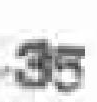35
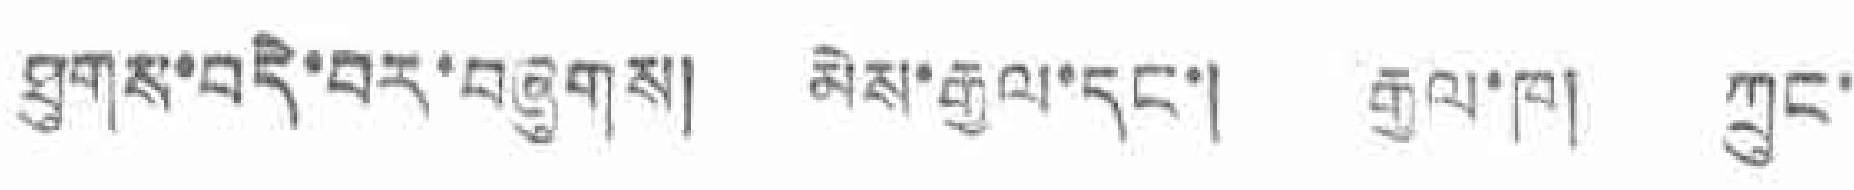ཐུགས་བདེ་བར་བཞུགས། མེས་རྒྱལ་དང་། རྒྱལ་ཁ། ཀྲུང་
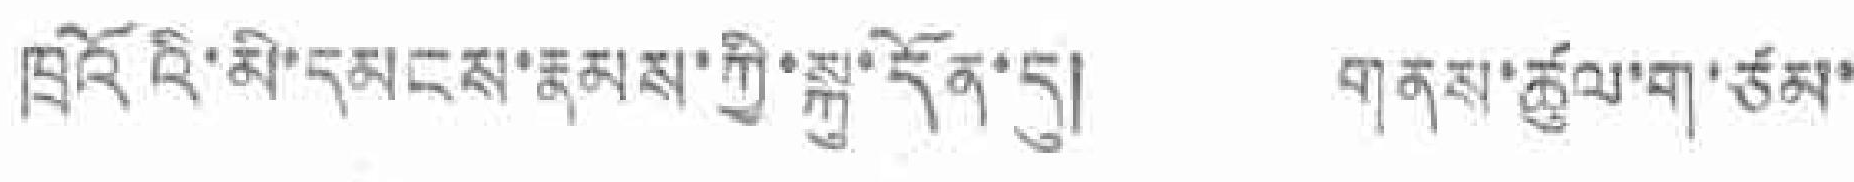ཁྲའོའི་མི་དམངས་རྣམས་ཀྱི་སྐུ་དོན་དུ། གནས་ཚུལ་ག་ཙམ་
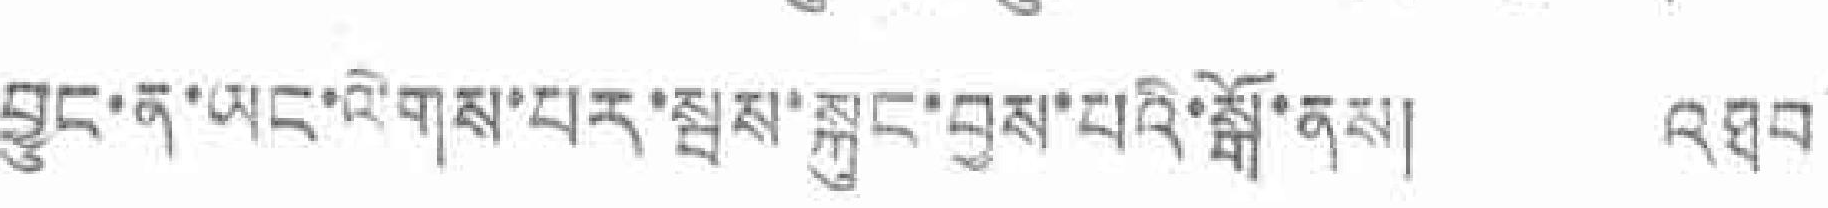བྱུང་ན་ཡང་ལེགས་པར་སྦས་སྐུང་བྱས་པའི་སྒོ་ནས། འཐབ
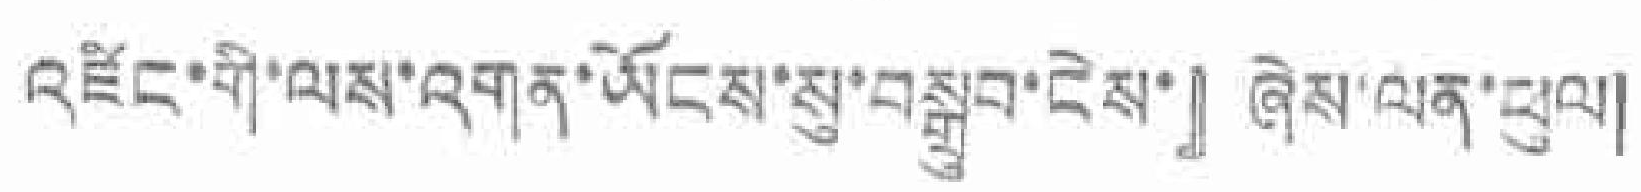འཛིང་གི་ལས་འགན་ཡོངས་སུ་བསྒྲུབ་ངེས་』ཞེས་ལན་ཕུལ།
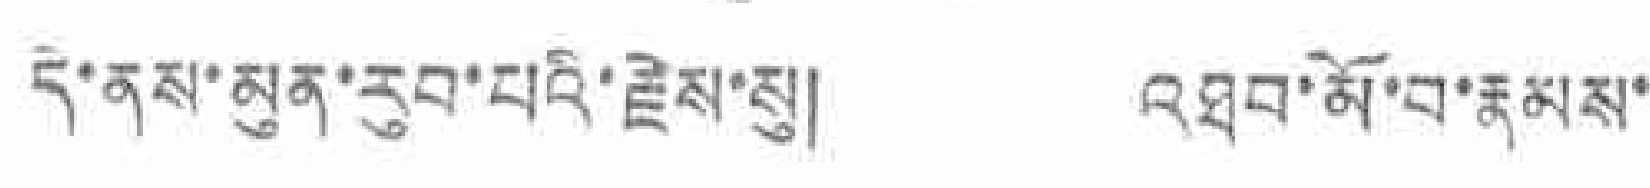དེ་ནས་མུན་རུབ་པའི་རྗེས་པུ། འཐབ་མོ་བ་རྣམས་
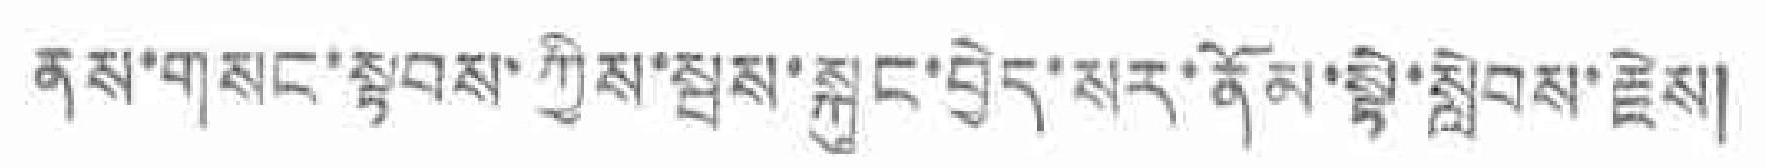ནས་གསང་སྟབས་ཀྱིས་སྦས་སྐུང་བྱེད་སར་ནོམ་སྟེ་སླེབས་རྗེས།
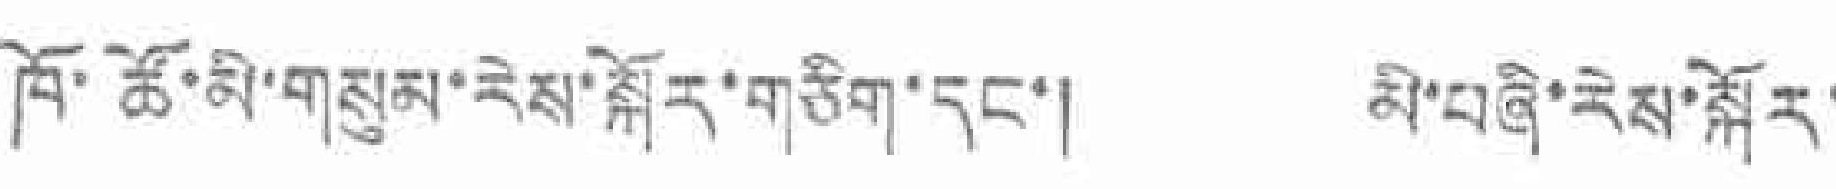ཁོ་ཚོ་མི་གསུམ་རེས་སྐོར་གཅིག་དང་། མི་བཞི་རེས་སྐོར་
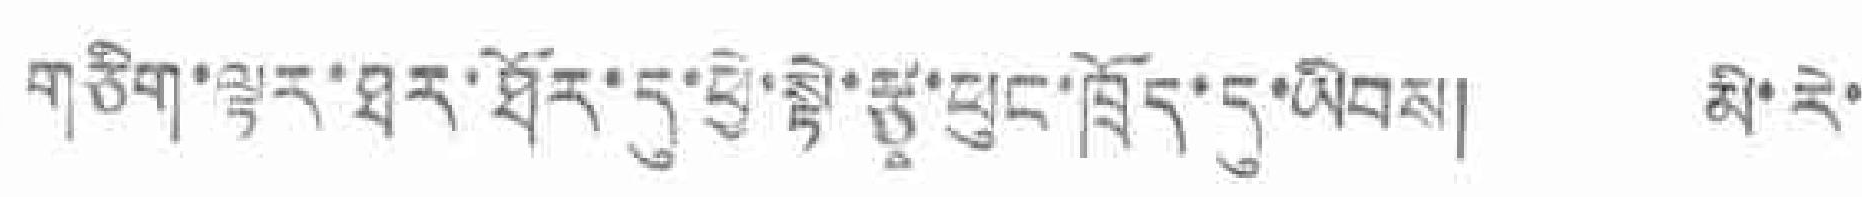གཅིག་ལྷར་ཐར་ཐོར་དུ་ཕྱེ་སྟེ་རྩྭ་ཕུང་ཁྲོད་དུ་ཡིབས། མི་རེ་
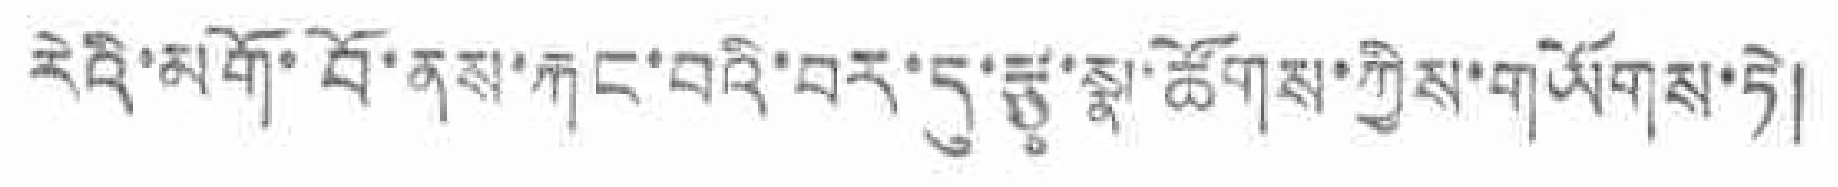རེའི་མགོ་བོ་ནས་རྐང་བའི་བར་དུ་རྩྭ་སྣ་ཚོགས་ཀྱིས་གཡོགས་ཏེ།
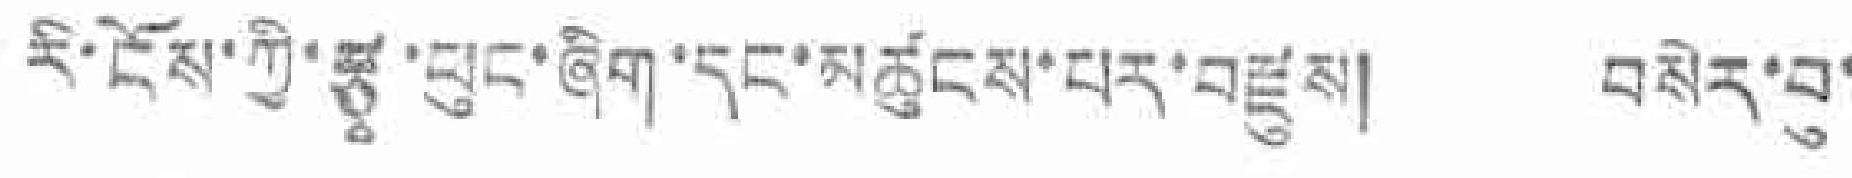རི་ངོས་ཀྱི་རྩྭ་ཕུང་ཞིག་དང་མཚུངས་པར་བརྫུས། བསེར་བུ་
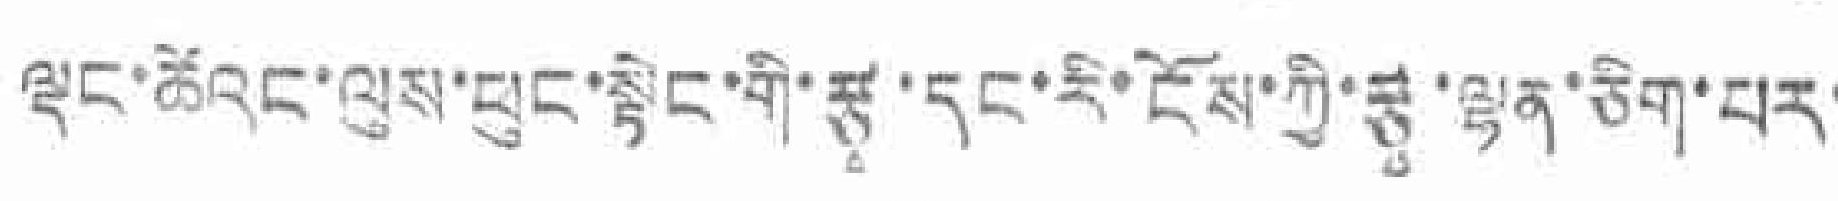ལྡང་ཚེའང་ལུས་ཕུང་སྟེང་གི་རྩྭ་དང་རི་ངོས་ཀྱི་རྩྭ་ལྷན་ཅིག་པར་
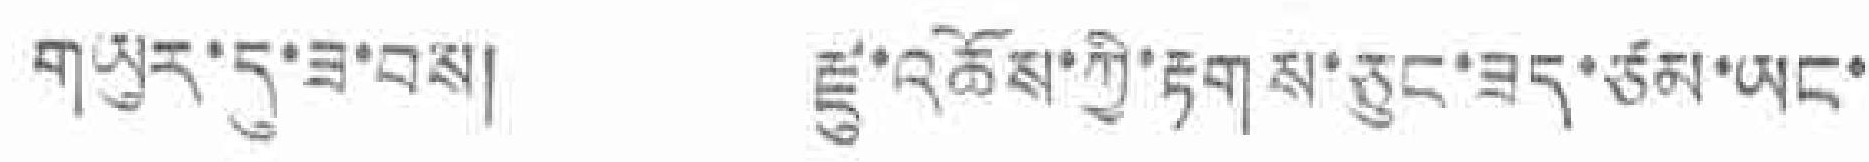གཡུར་དུ་ཟ་བས། རྫུ་འཆོས་ཀྱི་རྟགས་ཅུང་ཟད་ཙམ་ཡང་
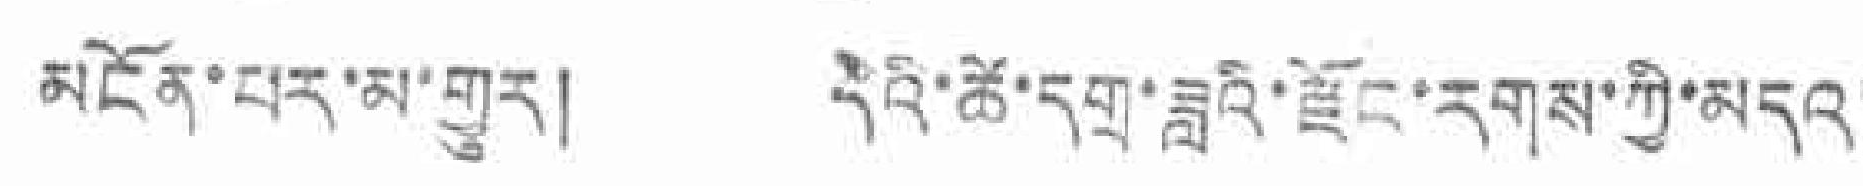མངོན་པར་མ་གྱུར། དེའི་ཚེ་དགྲ་ཟླའི་རྫོར་རགས་ཀྱི་མདའ་
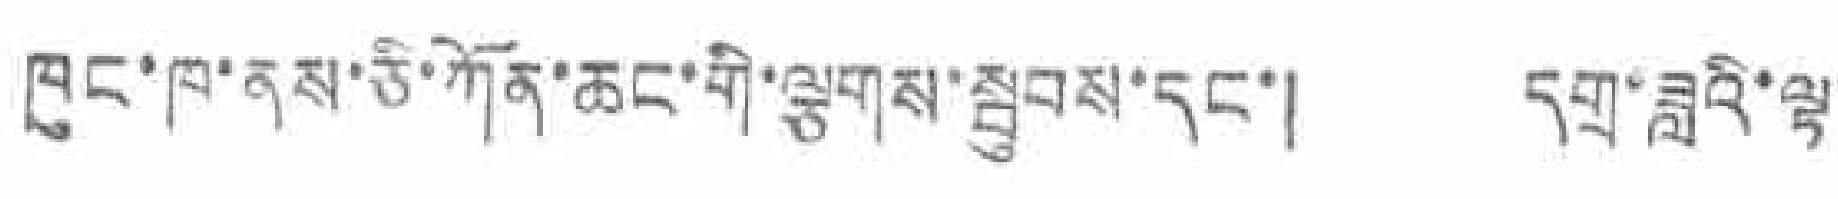ཁུང་ཁ་ནས་ཅི་ཀོན་ཆང་གི་ལྕགས་སྦུབས་དང་། དགྲ་ཟླའི་ལྟ་
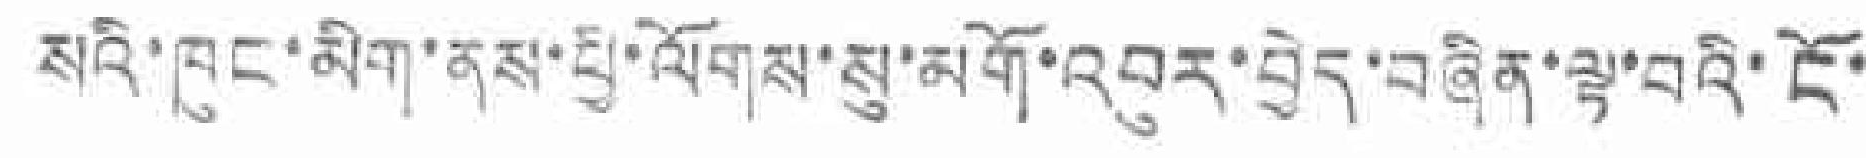སའི་ཁུང་མིག་ནས་ཕྱི་ལོགས་སུ་མགོ་འབུར་བྱེད་བཞིན་སྟ་བའི་ངོ་
